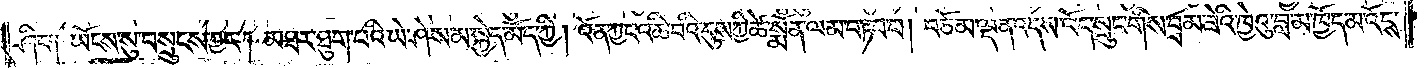ཤིང་༑ ཡོངས་སུ་བསྲུངས་ཀྱང༌། མཐར་ཐུག་པའི་ཡེ་ཤེས་མ་སྐྱེད་མོད་ཀྱི། འོན་ཀྱང་འཆི་བའི་དུས་ཀྱི་ཚེ་སྨོན་ལམ་བཏབ་པ། བཅོམ་ལྡན་འདས་འོད་སྲུང་གིས་བྲམ་ཟེའི་ཁྱེའུ་བླ་མ་ཁྱོད་མ་འོངས་
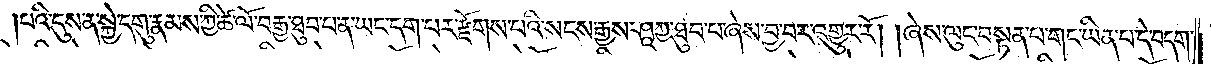པའི་དུས་ན་སྐྱེ་དགུ་རྣམས་ཀྱི་ཚེ་ལོ་བརྒྱ་ཐུབ་པ་ན་ཡང་དག་པར་རྫོགས་པའི་སངས་རྒྱས་ཤཱཀྱ་ཐུབ་པ་ཞེས་བྱ་བར་འགྱུར་རོ། །ཞེས་ལུང་བསྟན་པ་གང་ཡིན་པ་དེ་བདག་
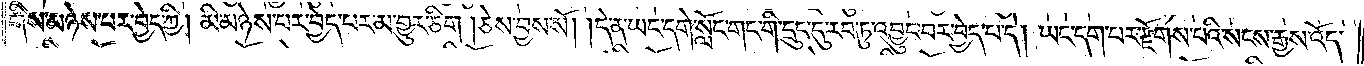གིས་མཉེས་པར་བྱེད་ཀྱི། མི་མཉེས་པར་བྱེད་པར་མ་གྱུར་ཅིག །ཅེས་བྱས་སོ། །དེ་ན་ཡང་དགེ་སློང་གང་གི་དྲུང་དུ་རབ་ཏུ་འབྱུང་བར་བྱེད་པ་དེ། ཡང་དག་པར་རྫོགས་པའི་སངས་རྒྱས་འོད་
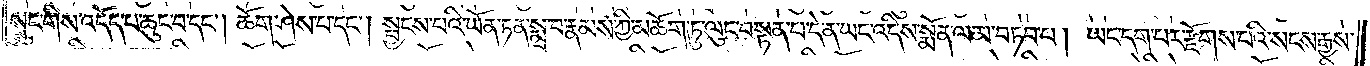སྲུང་གིས་འདོད་པ་ཆུང་བ་དང༌། ཆོག་ཤེས་པ་དང༌། སྦྱངས་པའི་ཡོན་ཏན་སྨྲ་བ་རྣམས་ཀྱི་མཆོག་ཏུ་ལུང་བསྟན་པ་དེ་ན་ཡང་འདིས་སྨོན་ལམ་བཏབ་པ། ཡང་དག་པར་རྫོགས་པའི་སངས་རྒྱས་
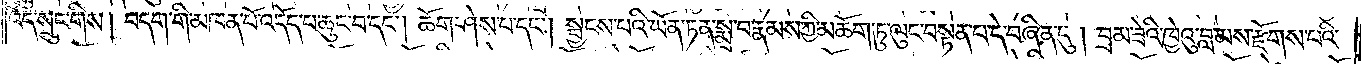འོད་སྲུང་གིས། བདག་གི་མཁན་པོ་འདོད་པ་ཆུང་བ་དང༌། ཆོག་ཤེས་པ་དང༌། སྦྱངས་པའི་ཡོན་ཏན་སྨྲ་བ་རྣམས་ཀྱི་མཆོག་ཏུ་ལུང་བསྟན་པ་དེ་བཞིན་དུ། བྲམ་ཟེའི་ཁྱེའུ་བླ་མས་རྫོགས་པའི་
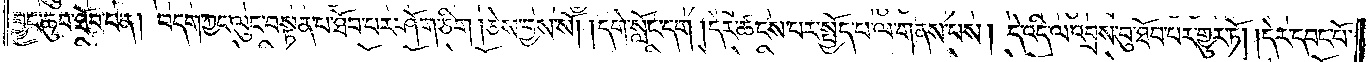བྱང་ཆུབ་ཐོབ་པ་ན། བདག་ཀྱང་ལུང་བསྟན་པ་ཐོབ་པར་ཤོག་ཅིག །ཅེས་བྱས་སོ། །དགེ་སློང་དག །དེར་ཚངས་པར་སྤྱོད་པ་ལ་གནས་པས། དེ་འདི་ལ་འབྲས་བུ་ཐོབ་པར་གྱུར་ཏོ། །དེར་དབང་པོ་
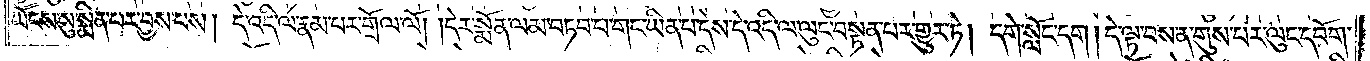ཡོངས་སུ་སྨིན་པར་བྱས་པས། དེ་འདི་ལ་རྣམ་པར་གྲོལ་ལོ། །དེར་སྨོན་ལམ་བཏབ་པ་གང་ཡིན་པ་དེས་དེ་འདི་ལ་ལུང་བསྟན་པར་གྱུར་ཏེ། དགེ་སློང་དག །དེ་ལྟ་བས་ན་གུས་པར་ལུང་དཔོག་
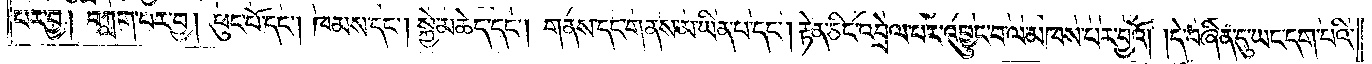པར་བྱ། བཀླག་པར་བྱ། ཕུང་པོ་དང༌། ཁམས་དང༌། སྐྱེ་མཆེད་དང༌། གནས་དང་གནས་མ་ཡིན་པ་དང༌། རྟེན་ཅིང་འབྲེལ་བར་འབྱུང་བ་ལ་མཁས་པར་བྱའོ། །དེ་བཞིན་དུ་ཡང་དག་པའི་
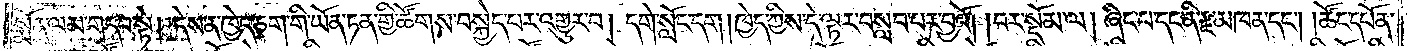སྨོན་ལམ་གདབ་སྟེ། དེས་ན་ཁྱེད་ཅག་གི་ཡོན་ཏན་གྱི་ཚོགས་བསྐྱེད་པར་འགྱུར་བ། དགེ་སློང་དག །ཁྱེད་ཀྱིས་དེ་ལྟར་བསླབ་པར་བྱའོ། །བར་སྡོམ་ལ། ཞིང་པ་དང་ནི་རྫ་མཁན་དང༌། །ཚོང་དཔོན་
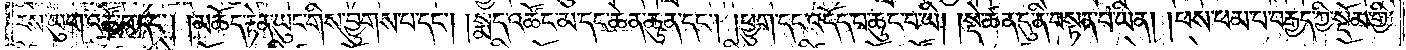རས་ཡུག་འཚོ་བ་དང༌། །མཆོད་རྟེན་ཡུང་གིས་བྱུགས་པ་དང༌། །སྨད་འཚོང་མ་དང་ཆེན་ཆུན་དང༌། །ཕྱུག་དང་འདོད་པ་ཆུང་བ་ཡིན། །སྡེ་ཚན་དུ་ནི་བསྟན་པ་ཡིན། །ཕས་ཕམ་པ་བརྒྱད་ཀྱི་སྡོམ་གྱི་
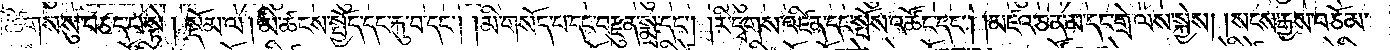ཚིགས་སུ་བཅད་པ་སྟེ། སྡོམ་ལ། མི་ཚངས་སྤྱོད་དང་རྐུ་བ་དང༌། །མི་གསོད་པ་དང་བརྫུན་སྨྲ་དང༌། །རི་དྭགས་འཛིན་དང་སྤོས་འཚོང་དང༌། །མཛའ་ཅན་མ་དང་གྲེ་ལས་སྐྱེས། །སངས་རྒྱས་བཅོམ་
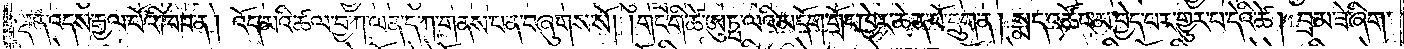ལྡན་འདས་རྒྱལ་པོའི་ཁབ་ན། འོད་མའི་ཚལ་བྱ་ཀ་ལན་ད་ཀ་གནས་པ་ན་བཞུགས་སོ། །གང་གི་ཚེ་ཨུཏྤ་ལའི་མདོག་གྲོང་ཁྱེར་ཆེན་པོ་དྲུག་ན། སྨད་འཚོང་མ་བྱེད་པར་གྱུར་པ་དེའི་ཚེ། བྲམ་ཟེ་ཞིག་
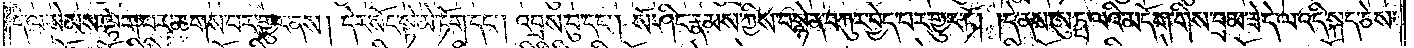དེ་ལ་སེམས་ལྷག་པར་ཆགས་པར་གྱུར་ནས། དེར་སོང་སྟེ་མེ་ཏོག་དང༌། འབྲས་བུ་དང༌། སོ་ཤིང་རྣམས་ཀྱིས་བསྙེན་བཀུར་བྱེད་པར་གྱུར་ཏོ། །དེ་ནས་ཨུཏྤ་ལའི་མདོག་གིས་བྲམ་ཟེ་དེ་ལ་འདི་སྐད་ཅེས་
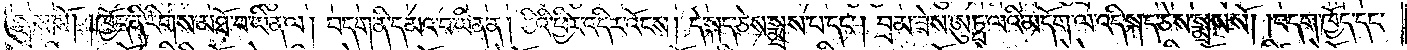སྨྲས་སོ། །ཁྱོད་ནི་རིགས་མཐོ་བ་ཡིན་ལ། བདག་ནི་དམའ་བ་ཡིན་ན། ཅིའི་ཕྱིར་འདིར་འོངས། དེ་སྐད་ཅེས་སྨྲས་པ་དང༌། བྲམ་ཟེས་ཨུཏྤ་ལའི་མདོག་ལ་འདི་སྐད་ཅེས་སྨྲས་སོ། །བདག་ཁྱོད་དང་
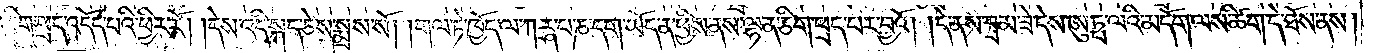ལྷན་ཅིག་ཕྲག་འདོད་པའི་ཕྱིར་རོ། །དེས་འདི་སྐད་ཅེས་སྨྲས་སོ། །གལ་ཏེ་ཁྱོད་ལ་ཀཪྴ་པ་ཎ་དག་ཡོད་ན་ཕྱིས་ནས་ལྷག་ཅིག་ཕྲད་པར་བྱའོ། །དེ་ནས་བྲམ་ཟེ་དེས་ཨུཏྤ་ལའི་མདོག་ལས་ཚིག་དེ་ཐོས་ནས།
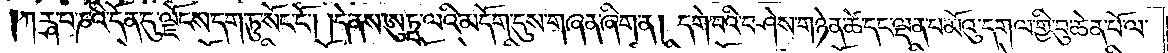ཀཪྴ་པ་ཎའི་དོན་དུ་ལྗོངས་དག་ཏུ་སོང་ངོ༌། །དེ་ནས་ཨུཏྤ་ལའི་མདོག་དུས་གཞན་ཞིག་ན། དགེ་བའི་བཤེས་གཉེན་ཚེ་དང་ལྡན་པ་མོའུ་དགལ་གྱི་བུ་ཆེན་པོ་ལ་
